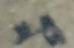༥
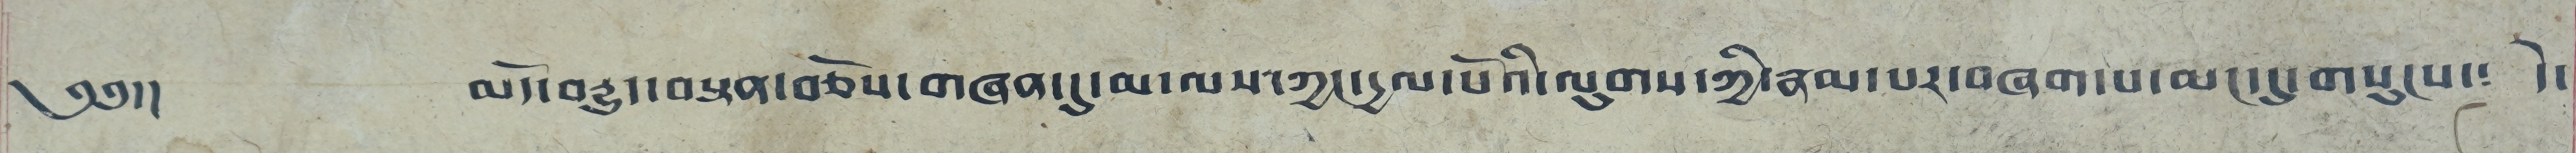༄༅།། མདོ་བརྒྱུད་བསྟན་བཅོས་གཞན་དུ་མ་ལས་ཀྱང་དྱལ་པོའི་ལུགས་ཀྱི་རྣམ་པར་བཞག་པ་མང་དུ་གསུངས་༴ དེ་
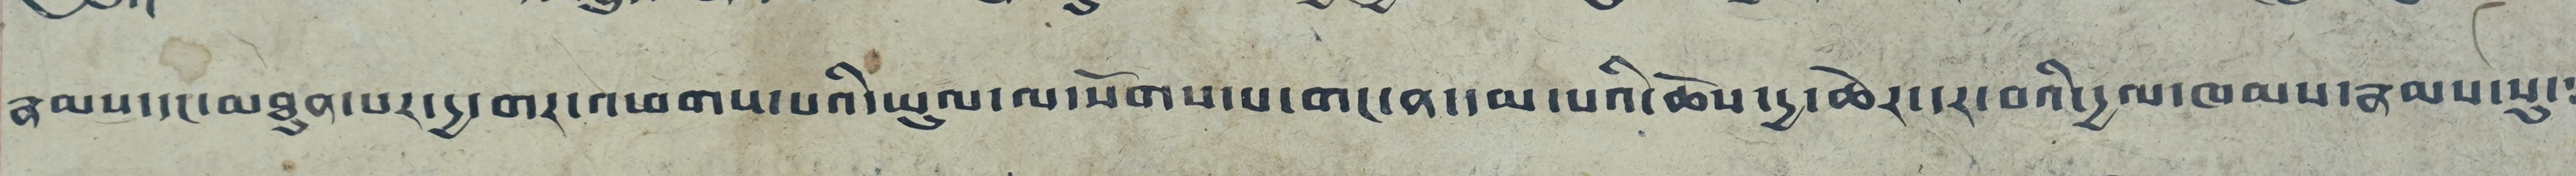རྣམས་དང་མཐུན་པར་དྱ་གར་འཕགས་པའི་ཡུལ་ལ་སོགས་པ་གང་ན་དམ་པའི་ཆོས་དྱ་ཆེར་དར་བའི་དྱལ་ཁམས་རྣམས་སུ་༴
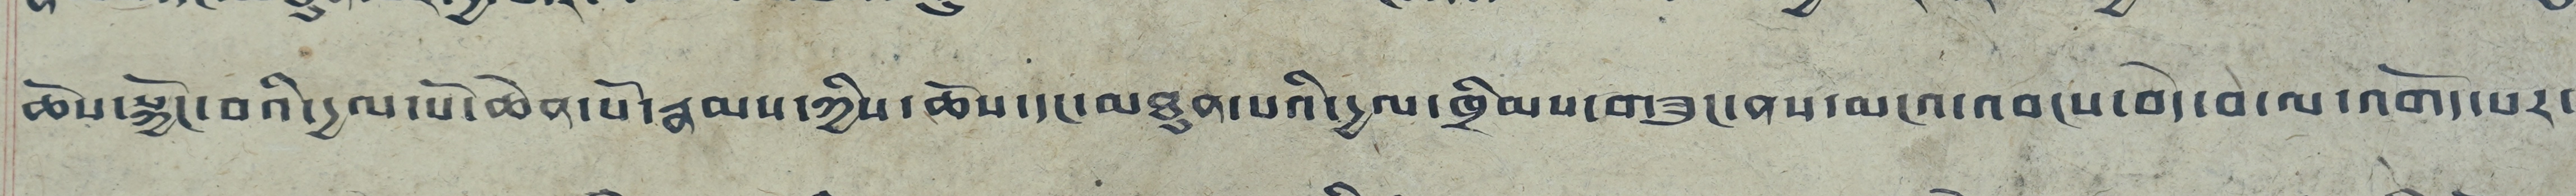ཆོས་སྐྱོང་བའི་དྱལ་པོ་ཆེན་པོ་རྣམས་ཀྱིས་ཆོས་དང་མཐུན་པའི་དྱལ་ཁྲིམས་གཟུང་ནས་མངའ་འབངས་བདེ་བ་ལ་འགོད་པར་
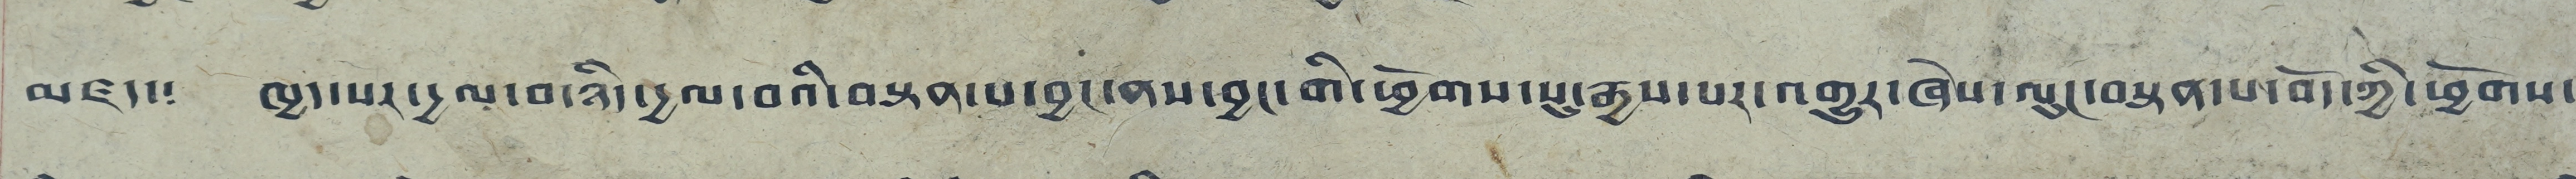མཛད་༴ ཁྱད་པར་དྱལ་བ་ཉིད་དྱལ་བའི་བསྟན་པ་བྱང་ནས་བྱང་གི་ཕྱོགས་སུ་རྒྱས་པར་འགྱུར་ཞེས་ལུང་བསྟན་པ་བོད་ཀྱི་ཕྱོགས་
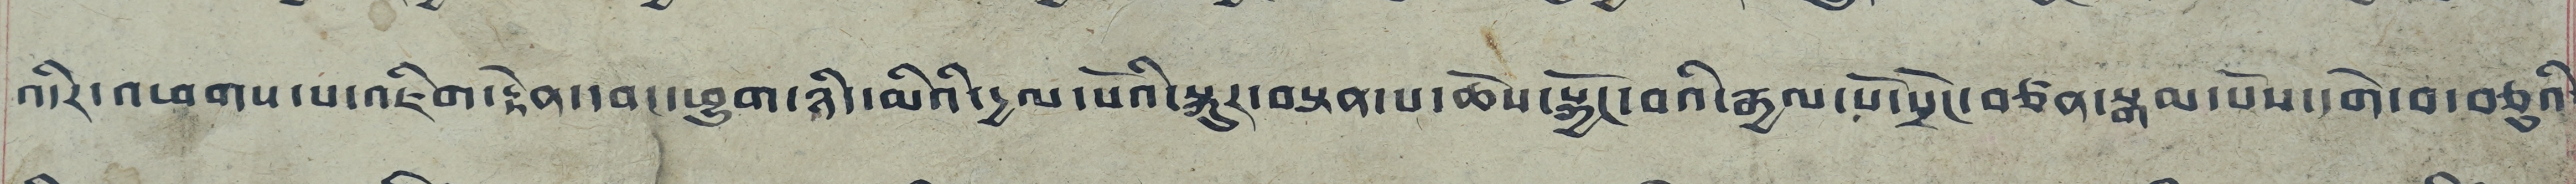འདིར་འཕགས་པ་འཇིག་རྟེན་དབང་ཕྱུག་ཉིད་མིའི་དྱལ་པོའི་སྐུར་བསྟན་པ་ཆོས་སྐྱོང་བའི་རྒྱལ་པོ་སྲོང་བཙན་སྒམ་པོས་དགེ་བ་བཅུའི་
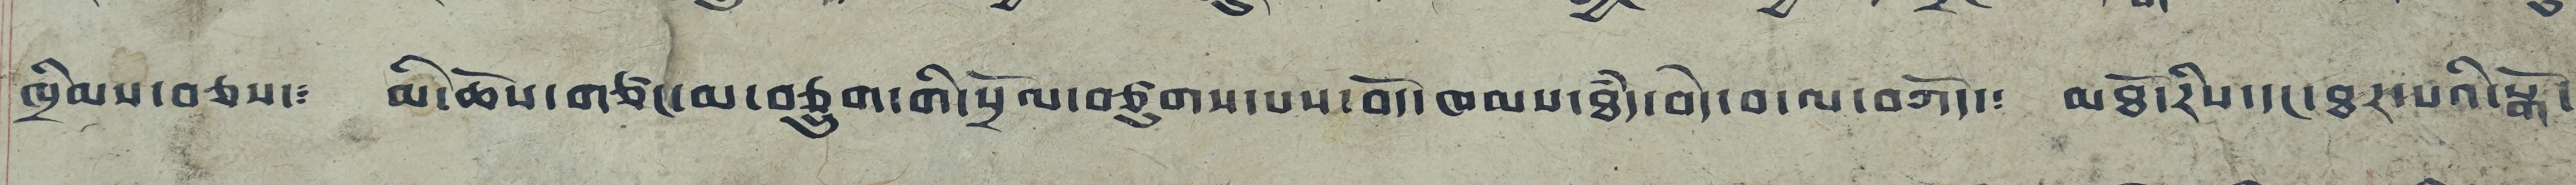ཁྲིམས་བཅས་༴ མི་ཆོས་གཙང་མ་བཅུ་དྲུག་གི་སྲོལ་བཙུགས་པས་བོད་ཁམས་ཐཾད་བདེ་བ་ལ་བཀོད་༴ མཐོ་རིས་དང་ཐར་པའི་སྒོ་
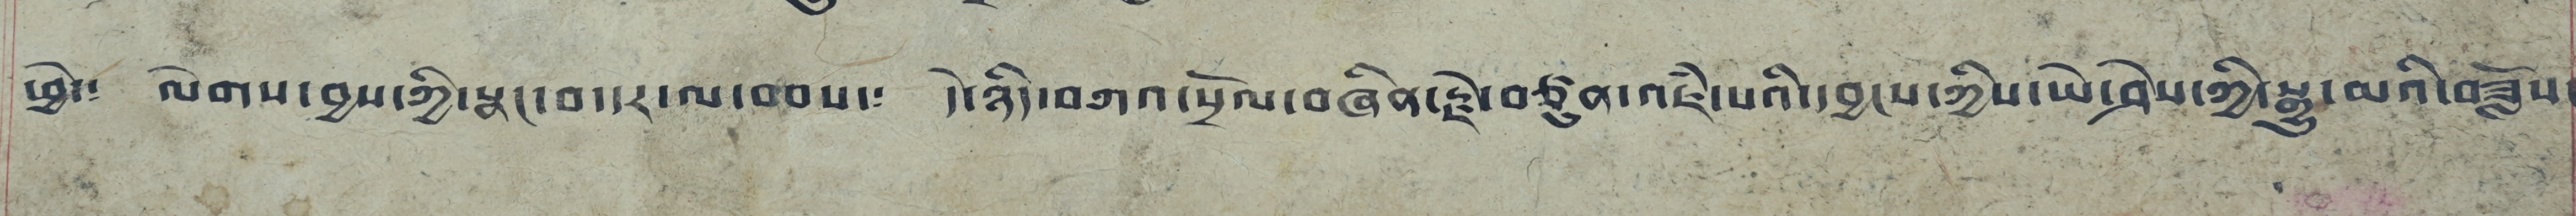ཕྱེ་༴ ལེགས་བྱས་ཀྱི་སྣང་བ་དར་ལ་བབས་༴ དེ་ཉིད་བཀའ་སྲོལ་བཞིན་རྗེ་བཙུན་འཇམ་པའི་དབྱངས་ཀྱིས་ཡེ་ཤེས་ཀྱི་སྒྱུ་མའི་བཟློས་
